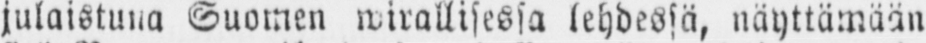julaistuna Suomen wirallisessa lehdessä, näyttämään
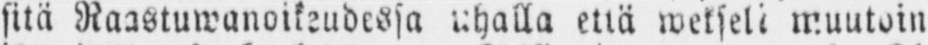sitä Raastuwanoikeudessa uhalla että wekseli muutoin
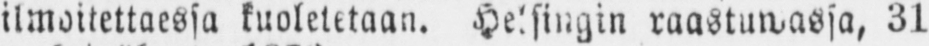ilmoitettaessa kuoletetaan. Helsingin raastuwassa, 31
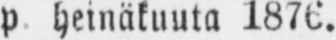p heinäkuuta 1876.
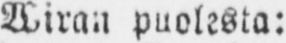Wiran puolesta:
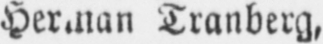Herman Tranberg,
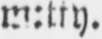m:tty.
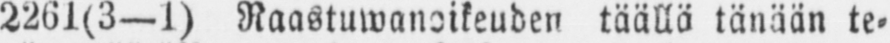2261(3—1) Raastuwanoikeuden täällä tänään te-
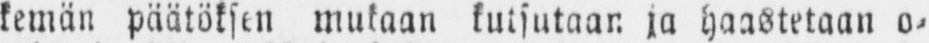kemän päätöksen mukaan kutsutaan ja haastetaan o-
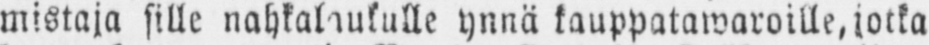mistaja sille nahkalaukulle ynnä kauppatawaroille, jotka
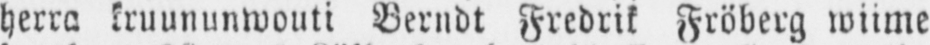herra kruununwouti Berndt Fredrik Fröberg wiime
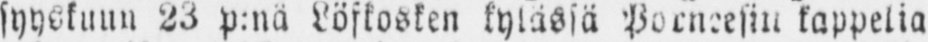syyskuun 23 p:nä Löfkosken kylässä Porneesin kappelia
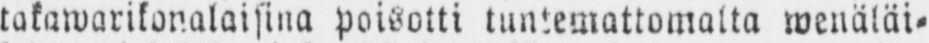takawarikonalaisina poisotti tuntemattomatta wenäläi-
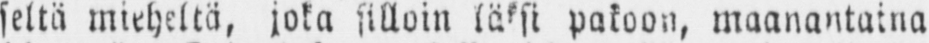seltä mieheltä, joka silloin läksi pakoon, maanantaina
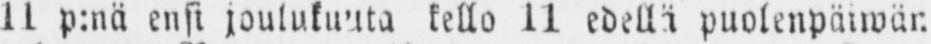11 p:nä ensi joulukuuta kello 11 edellä puolenpäiwän
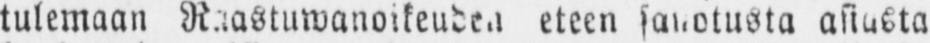tulemaan Raastuwanoikeuden eteen sanotusta asiasta
